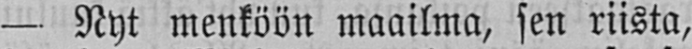— Nyt menköön maailma, sen riista,
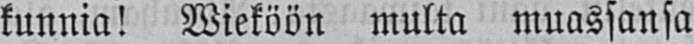kunnia! Wieköön multa muassansa
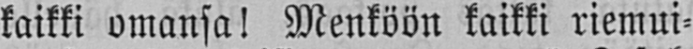kaikki omansa! Menköön kaikki riemui-
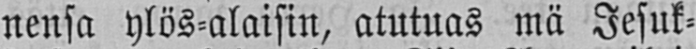nensa ylös-alaisin, atutuas mä Jesuk-
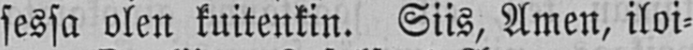sessa olen kuitenkin. Siis, Amen, iloi-
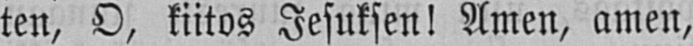ten, O, kiitos Jesnksen! Amen, amen,
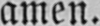amen.
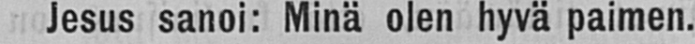Jesus sanoi: Minä olen hyvä paimen.
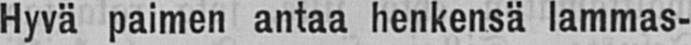Hyvä paimen antaa henkensä lammas-
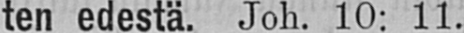ten edestä. Joh. 10: 11.
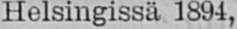Helsingissä 1894,
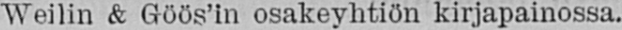Weilin & Göös'in osakeyhtiön kirjapainossa.
